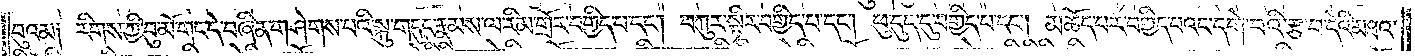བུའམ། རིགས་ཀྱི་བུ་མོ་གང་དེ་བཞིན་གཤེགས་པའི་སྐུ་གདུང་རྣམས་ལ་རིམ་གྲོར་བགྱིད་པ་དང༌། བཀུར་སྟེར་བགྱིད་པ་དང༌། ཕུ་དུད་དུ་བགྱིད་པ་དང༌། མཆོད་པར་བགྱིད་པའང་དགེ་བའི་རྩ་བ་དེའི་མཐའ་
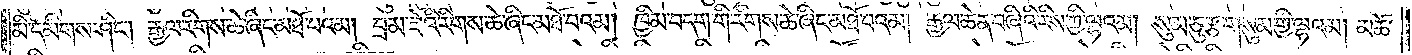མི་དམིགས་ཤིང༌། རྒྱལ་རིགས་ཆེ་ཞིང་མཐོ་བའམ། བྲམ་ཟེའི་རིགས་ཆེ་ཞིང་མཐོ་བའམ། ཁྱིམ་བདག་གི་རིགས་ཆེ་ཞིང་མཐོ་བའམ། རྒྱལ་ཆེན་བཞིའི་རིས་ཀྱི་ལྷའམ། སུམ་ཅུ་རྩ་གསུམ་གྱི་ལྷའམ། མཚེ་
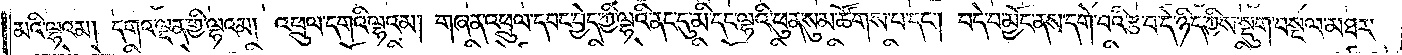མའི་ལྷའམ། དགའ་ལྡན་གྱི་ལྷའམ། འཕྲུལ་དགའི་ལྷའམ། གཞན་འཕྲུལ་དབང་བྱེད་ཀྱི་ལྷའི་ནང་དུ་མི་དང་ལྷའི་ཕུན་སུམ་ཚོགས་པ་དང༌། བདེ་བ་མྱོང་ནས་དགེ་བའི་རྩ་བ་དེ་ཉིད་ཀྱིས་སྡུག་བསྔལ་མཐར་
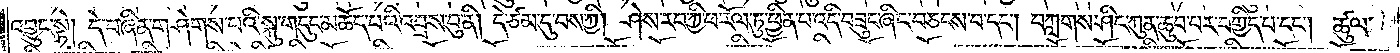འབྱུང་སྟེ། དེ་བཞིན་གཤེགས་པའི་སྐུ་གདུང་མཆོད་པའི་འབྲས་བུ་ནི། དེ་ཙམ་དུ་བས་ཀྱི། ཤེས་རབ་ཀྱི་ཕ་རོལ་ཏུ་ཕྱིན་པ་འདི་བཟུང་ཞིང་བཅངས་པ་དང༌། བཀླགས་ཤིང་ཀུན་ཆུབ་པར་བགྱིད་པ་དང༌། ཚུལ་
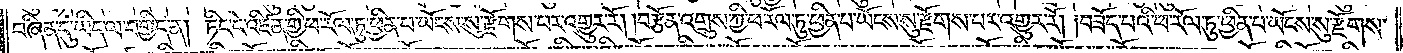བཞིན་དུ་ཡིད་ལ་བགྱིད་ན། ཏིང་ངེ་འཛིན་གྱི་ཕ་རོལ་ཏུ་ཕྱིན་པ་ཡོངས་སུ་རྫོགས་པར་འགྱུར་རོ། །བརྩོན་འགྲུས་ཀྱི་ཕ་རོལ་ཏུ་ཕྱིན་པ་ཡོངས་སུ་རྫོགས་པར་འགྱུར་རོ། །བཟོད་པའི་ཕ་རོལ་ཏུ་ཕྱིན་པ་ཡོངས་སུ་རྫོགས་
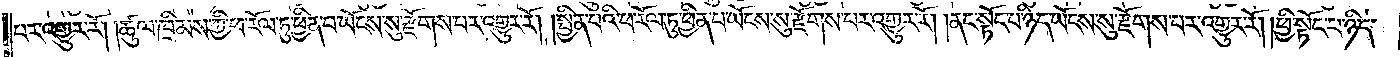པར་འགྱུར་རོ། །ཚུལ་ཁྲིམས་ཀྱི་ཕ་རོལ་ཏུ་ཕྱིན་པ་ཡོངས་སུ་རྫོགས་པར་འགྱུར་རོ། །སྦྱིན་པའི་ཕ་རོལ་ཏུ་ཕྱིན་པ་ཡོངས་སུ་རྫོགས་པར་འགྱུར་རོ། །ནང་སྟོང་པ་ཉིད་ཡོངས་སུ་རྫོགས་པར་འགྱུར་རོ། །ཕྱི་སྟོང་པ་ཉིད་
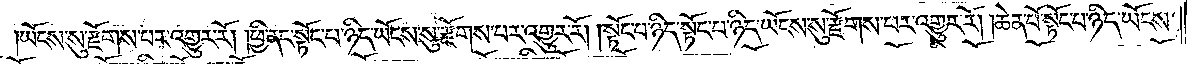ཡོངས་སུ་རྫོགས་པར་འགྱུར་རོ། །ཕྱི་ནང་སྟོང་པ་ཉིད་ཡོངས་སུ་རྫོགས་པར་འགྱུར་རོ། །སྟོང་པ་ཉིད་སྟོང་པ་ཉིད་ཡོངས་སུ་རྫོགས་བར་འགྱུར་རོ། །ཆེན་པོ་སྟོང་པ་ཉིད་ཡོངས་
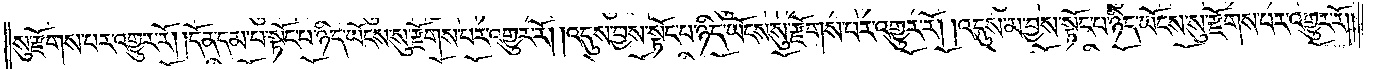སུ་རྫོགས་པར་འགྱུར་རོ། །དོན་དམ་པ་སྟོང་པ་ཉིད་ཡོངས་སུ་རྫོགས་པར་འགྱུར་རོ། །འདུས་བྱས་སྟོང་པ་ཉིད་ཡོངས་སུ་རྫོགས་པར་འགྱུར་རོ། །འདུས་མ་བྱས་སྟོང་པ་ཉིད་ཡོངས་སུ་རྫོགས་པར་འགྱུར་རོ། །
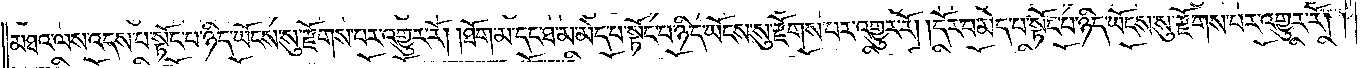མཐའ་ལས་འདས་པ་སྟོང་པ་ཉིད་ཡོངས་སུ་རྫོགས་པར་འགྱུར་རོ། །ཐོག་མ་དང་ཐ་མ་མེད་པ་སྟོང་པ་ཉིད་ཡོངས་སུ་རྫོགས་པར་འགྱུར་རོ། །དོར་བ་མེད་པ་སྟོང་པ་ཉིད་ཡོངས་སུ་རྫོགས་པར་འགྱུར་རོ། །
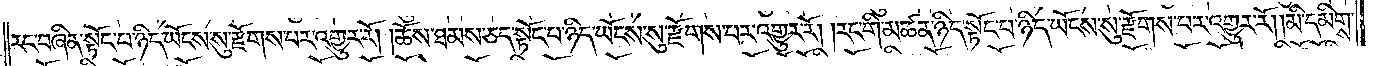རང་བཞིན་སྟོང་པ་ཉིད་ཡོངས་སུ་རྫོགས་པར་འགྱུར་རོ། །ཆོས་ཐམས་ཅད་སྟོང་པ་ཉིད་ཡོངས་སུ་རྫོགས་པར་འགྱུར་རོ། །རང་གི་མཚན་ཉིད་སྟོང་པ་ཉིད་ཡོངས་སུ་རྫོགས་པར་འགྱུར་རོ། །མི་དམིགས་
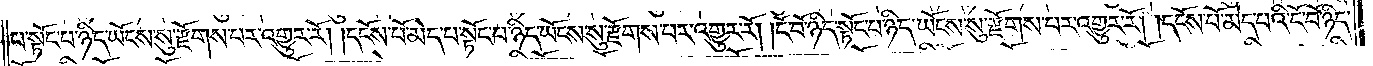པ་སྟོང་པ་ཉིད་ཡོངས་སུ་རྫོགས་པར་འགྱུར་རོ། །དངོས་པོ་མེད་པ་སྟོང་པ་ཉིད་ཡོངས་སུ་རྫོགས་པར་འགྱུར་རོ། །ངོ་བོ་ཉིད་སྟོང་པ་ཉིད་ཡོངས་སུ་རྫོགས་པར་འགྱུར་རོ། །དངོས་པོ་མེད་པའི་ངོ་བོ་ཉིད་
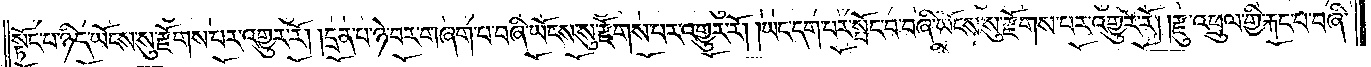སྟོང་པ་ཉིད་ཡོངས་སུ་རྫོགས་པར་འགྱུར་རོ། །དྲན་པ་ཉེ་བར་གཞག་པ་བཞི་ཡོངས་སུ་རྫོགས་པར་འགྱུར་རོ། །ཡང་དག་པར་སྤོང་བ་བཞི་ཡོངས་སུ་རྫོགས་པར་འགྱུར་རོ། །རྫུ་འཕྲུལ་གྱི་རྐང་པ་བཞི་
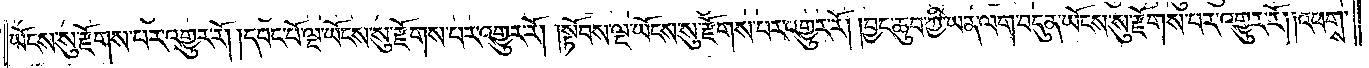ཡོངས་སུ་རྫོགས་པར་འགྱུར་རོ། །དབང་པོ་ལྔ་ཡོངས་སུ་རྫོགས་པར་འགྱུར་རོ། །སྟོབས་ལྔ་ཡོངས་སུ་རྫོགས་པར་འགྱུར་རོ། །བྱང་ཆུབ་ཀྱི་ཡན་ལག་བདུན་ཡོངས་སུ་རྫོགས་པར་འགྱུར་རོ། །འཕགས་
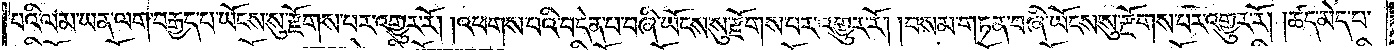པའི་ལམ་ཡན་ལག་བརྒྱད་པ་ཡོངས་སུ་རྫོགས་པར་འགྱུར་རོ། །འཕགས་པའི་བདེན་པ་བཞི་ཡོངས་སུ་རྫོགས་པར་འགྱུར་རོ། བསམ་གཏན་བཞི་ཡོངས་སུ་རྫོགས་པར་འགྱུར་རོ། །ཚད་མེད་པ་
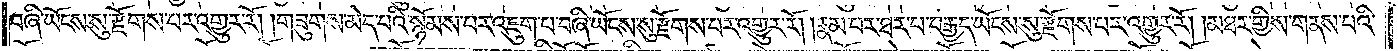བཞི་ཡོངས་སུ་རྫོགས་པར་འགྱུར་རོ། །གཟུགས་མེད་པའི་སྙོམས་པར་འཇུག་པ་བཞི་ཡོངས་སུ་རྫོགས་པར་འགྱུར་རོ། །རྣམ་པར་ཐར་པ་བརྒྱད་ཡོངས་སུ་རྫོགས་པར་འགྱུར་རོ། །མཐར་གྱིས་གནས་པའི་
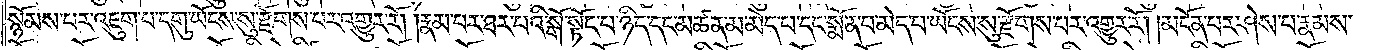སྙོམས་པར་འཇུག་པ་དགུ་ཡོངས་སུ་རྫོགས་པར་འགྱུར་རོ། །རྣམ་པར་ཐར་པའི་སྒོ་སྟོང་པ་ཉིད་དང་མཚན་མ་མེད་པ་དང་སྨོན་པ་མེད་པ་ཡོངས་སུ་རྫོགས་པར་འགྱུར་རོ། །མངོན་པར་ཤེས་པ་རྣམས་
